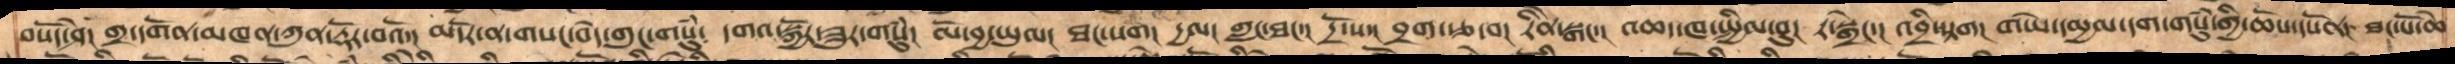བསོད་ཤེ།  གྲ་དགོན་མཁན་ཀུན་རྡོར་བའོ་།  མདོར་ན་གསང་བདེ་གུང་གསུཾ༴  དགའ་སྐྱོར་ཟུར་གསུཾ།  ལོ་བྱ་ཡུལ་  ཐང་སག། དྱལ།  གླང་ཐང་། དྲོ་ས་།   བྲག་རྩ་བ། རིནེ་སྒང་།  འཆད་ཁ་སྤྱིལ་བུ།  ར་སྒྲེང་།  འབྲི་སྟག།  གཡེ་དམྱལ་དག་གསུཾ་གྱི་ཆོས་དཔོན།  ཐང་པོ་ཆེ་
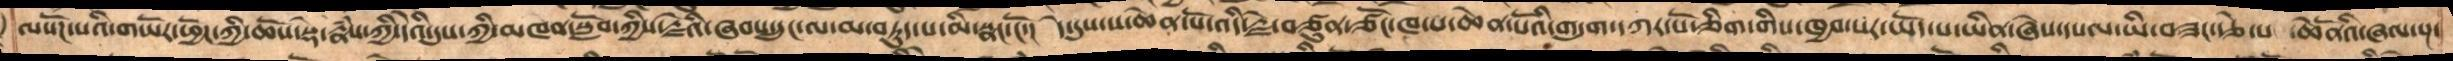ལསོཌ་པའི་གཡོར་ཕྱོཌ་ཀྱི་ཆོས་སྡེ་རྣཾས་ཀྱི་དེའི་དུས་ཀྱི་མཁན་སློབ་ཀྱིས་རྗེའི་ཞབས་དྲུང་མ་བཏུད་པ་མི་སྣང་ངོ་།  དེ་དུས་ས་ཆེན་པོ་འདི་རྗེ་བཙུན་ཙོང་ཁ་པ་ཆེན་པོའི་གདུག་དཀར་པོ་ཅིག་གིས་ཁྱབ་པར་ཡོད་པ་ཡིན་ཞེས་དཔལ་ཡི་བཟང་རྩེ་པ་  ཆེནོའི་ཞལ་སྔ་
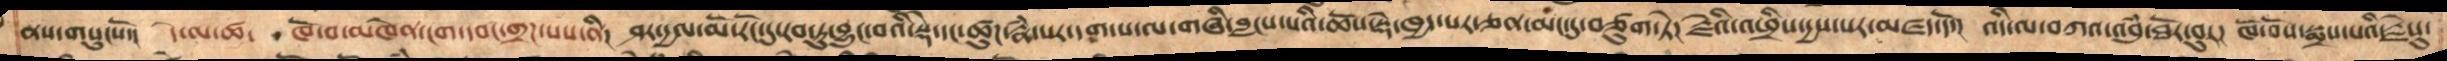ནས་གསུངསོ་།  དེ་མ་ཚ་ ཁོ་བ་མཁེན་ངག་དབང་གྲཌ་པས་ནི།  ཤར་དྱལ་མོ་རོང་དུ་རབ་་ཏུ་བྱུང་བའི་སྡེ་དང་ཚུཌ་རྣཾ་པར་དག་པ་ལ་གཞི་བླངས་པའི་ཆོས་སྡེ་ཁྱད་པར་ཅན་མང་དུ་བཙུག་ཏེ།  རྗེའི་འཕྲིས་སདྱས་པར་མཛད་དོ།  འདི་ལ་བཀའ་འབུཾ་ཐོར་བུར།  ཁོ་བོས་སྨྲས་པའི་རྗེསུ་
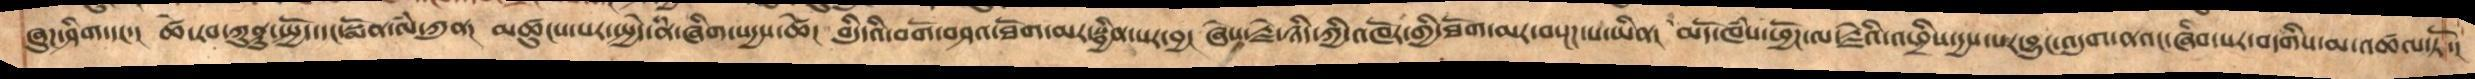ཞུཌ་ཤིག་དང་།  ཚེ་རབ་ཀུནྟུ་སྤྱོད་དང་སྨོན་ལཾ་ཀུན། མཚུངས་པར་སྤྱེད་ནཾ་ཞིག་སདྱས་ཚེ། བདུདིའི་བགོ་བཤའ་ཐོག་མར་སྦྱིན་པར་བྱ། ཞེས་རྗེ་ཉིད་ཀྱི་འཁོར་གྱི་ཐོག་མར་བསྔཌ་པ་ཡིན།  མདོ་ཁཾས་ཕྱོཌ་ལ་རྗེའི་འཕྲིས་དྱས་པར་བྱུང་འདུག་ནའང་ཞིབ་པར་བདགིས་མ་འཚལ་ཏོ་།
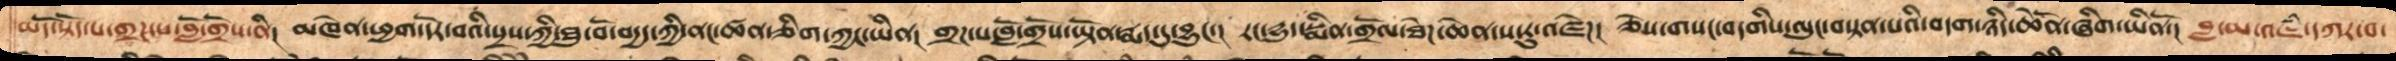མདོ་སྟོད་པ་གྲཌ་པ་བློ་གྲོས་ནི།  མཁེན་ཕྱག་དོར་བའི་སྲས་ཀྱི་ཐུ་བོ་བདྱད་ཀྱི་ནང་ཚན་ཅིག་ཀྱང་ཡིན།  གྲཌ་པ་བློ་གྲོས་ཡྟོན་རྨད་དུ་བྱུང་།  རང་དྱུད་སྨིན་གྲོལ་ཐེཌ་ཆེན་ས་རུ་འཛེཌ།  ཅེས་གསང་བདགིས་ལུང་བསྟན་པའི་བདག་ཉིད་ཆེནོ་ཞིག་ཡིནོ།  བླ་མ་འཇཾ་དཀར་བ་
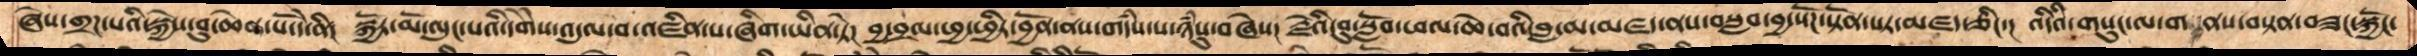ཞེས་གྲཌ་པའི་སྐྱེས་བུ་ཆེན་པོ་དེ་ནི།  སྐྱོར་མོ་ལུང་པའི་དགཻས་འདུལ་བ་འཛིན་པ་ཞིག་ཡིན་ཏེ།  བྱ་བྲལ་ཕྱ་ཕྱིར་བྱོན་ནས་གདཾས་པ་ཉཾསུ་བཞེས།  རྗེའི་བུ་སློབ་ཕལ་ཆེ་བའི་བླ་མ་མཛད་ནས་བསླབ་བྱ་སོཌ་སྟོན་པར་མཛད་ཅིང་།  འདིའི་གསུང་ལ་གནས་བསྟན་བཟང་སྐྱོང་
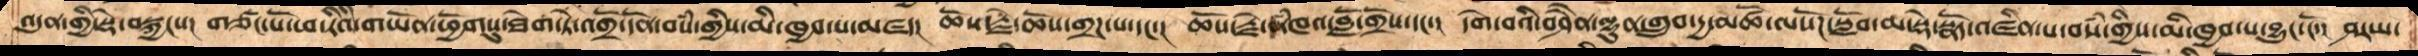འདུན་གྱི་སྡེ་བསྐྱངས། གཙང་པོ་ཕ་རིའི་གཡོན་ཕྱོགསུ་ཐེག་ཏེ་འགྲོ་དོན་བསཾ་གྱིས་མི་ཁྱབ་པ་མཛད།  ཆོས་རྗེ་ཆོས་གྲཌ་པ་དང་།  ཆོས་རྗེ་ནཾཁའ་བློ་གྲོས་དང་།  དགེ་བའི་བཤཻན་ལྷུན་གྲུབ་དྱ་མཚོ་ལསོཌ་སློབ་མ་སྡེ་སྣོད་འཛིན་པ་བསཾ་གྱིས་མི་ཁྱབ་པ་བྱུང་ངོ་།  ཤརཡ་
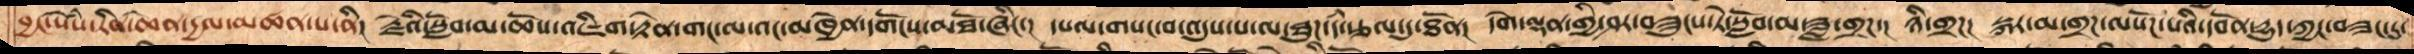བྱང་སེཾས་རིན་ཆེན་དྱལ་མཚན་པ་ནི།  རྗེའི་སློབ་མ་ཆོས་འཇིག་རྟེན་གང་ལ་འང་མཁྱེན་དགོངས་མཐོ་ཞིང་།  དཔལ་གསང་བ་འདུས་པ་ལ་ཐུཌ་དཾ་རྩལ་དུ་ཐོན།  དགེ་ལྡན་གྱི་ཤར་བཟུངས་ཏེ་སློབ་མ་ཟླ་གྲཌ།  ཉི་གྲཌ། སྐར་མ་གྲཌ་ལསོཌ་པའི་དབེན་དྱུད་ཀྱང་བཟང་དུ་
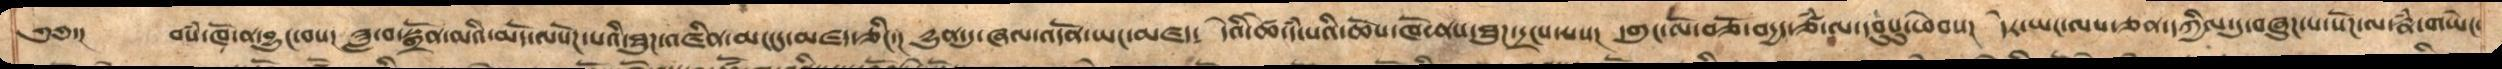༄༅་།    བསཾ་ཁོ་ན་བྱུང་བས།  ཟླ་བ་སྒྲོན་མའི་མདོ་ལསོཌ་པའི་ཐུཌ་འཛིན་མང་དུ་མཛད་ཅིང་།  དྱུན་དུ་ཞལ་འདོན་ཡང་མཛད་  དེའི་ཚེ་དཾ་པའི་ཆོས་ཁོ་ནས་ཐུཌ་དྲངས་པ།  དགུང་ལོ་བཅོ་བདྱད་ཙཾ་ལ་དབུསུ་ཕེབས།  དེར་ཡང་ལས་ཅན་དཀྱིལ་དུ་བཞུཌ་པ་སོཌ་ལ་རྣཾ་གཡེང་
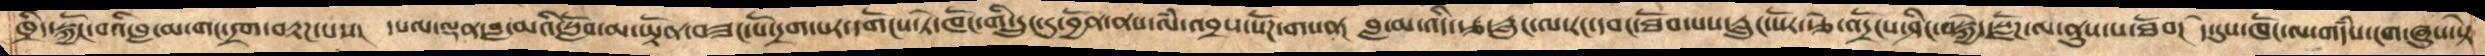ཁྲེད་སྐྱོང་བའི་བླ་མ་གང་དྲག་བརྟཌ་པས།  དཔལ་ལྡན་བླ་མའི་སློབ་མ་ཡྟོན་བཟང་པོ་དྲག་པར་དགོངས་ཏེ་ཁོང་གི་དྲུང་དུ་བྱོན་ནས་ལཾ་འབྲས་སོཌ་གསན།  བླ་མ་འདི་རྩ་རླུང་ལ་རང་དབང་ཐོབ་པས་རླུང་སོར་རྩེ་འདྲོངས་ཤིང་བསྐྱེད་སྫོཌ་ལ་ནུས་པ་ཐོབ།  དེ་དུས་ཁོང་ལ་གདཾས་ངག་ཞུས་ཏེ་
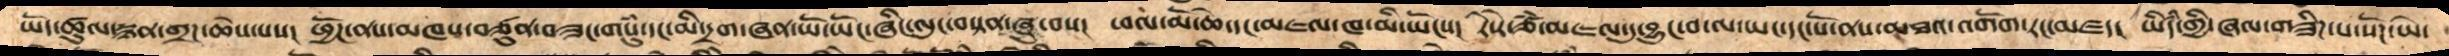ཡོད་ཚུལ་སྙན་གྲཌ་ཆེས་པས།  ཕྱོཌ་ནས་མཁས་བཙུན་བཟང་གསུཾ་དང་མི་དྲག་ཞན་ཡོ་ཡོང་ཞིང་ལུང་བསྟན་ཞུ་བས། ཕལ་མོ་ཆེ་དང་མཇལ་ཁ་མི་ཡོངས།  རེ་རེ་ཙཾ་མཇལ་དུ་བྱུང་བ་ལ་ཡང་དང་པོ་ནས་མཐའ་འགོག་རང་མཛད།  ཡི་དཾ་གྱི་ཞལ་གཟིཌ་པ་སོཌ་ཡེ་
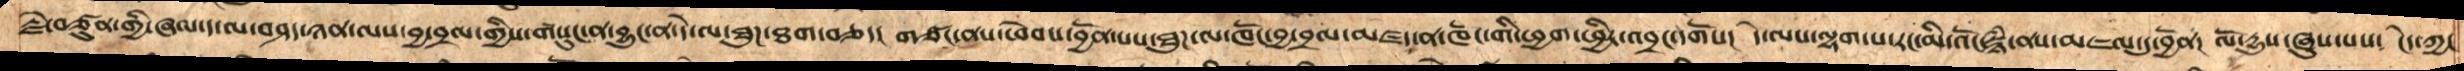རྗེ་བཙུན་གྱི་ཞལ་ད་ལ་བཤད་ཉན་ལས་བྱ་བྲལ་གྱིས་གསུང་ན་བྱུང་ན་དེ་ལ་ཐུཌ་ཐག་བཅད།  གཙང་ནས་ཕེབས་བྱོན་པས་ཐུཌ་ལ་ཁོང་བྱ་བྲལ་མཛད་ན་ཁོང་གི་ཕྱག་ཕྱིར་འབྲང་དགོས།  དེ་ལས་ལྷག་པ་རང་མི་འོང་སྙཾ་ནས་མཇལ་དུ་བྱོན།  ལོ་དྱུས་ཞུས་པས།  ངེད་ཀྱང་
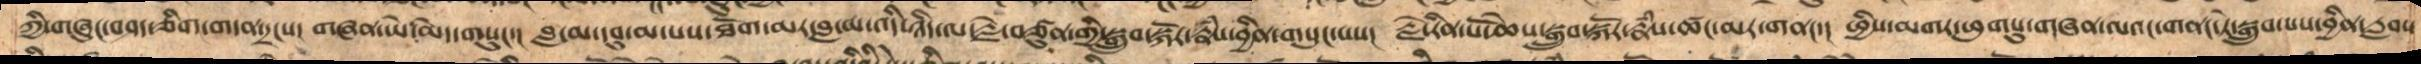ཀྱི་གཞུང་བཤད་ཅིག་གདན་དྲངས།  གཞན་ཡེ་མེད་གསུང་།  བླ་མ་དབུ་མ་པས་ཐོག་མར་བླ་མ་འདི་ཉིད་ལ་རྗེ་བཙུན་གྱི་སྒྲུབ་སྐོར་རྣཾས་བྱིན་གསུང་པས།  རྗེ་རིན་པོ་ཆེས་སྒྲུབ་སྐོར་རྣཾས་ཚང་མར་གནང་།  ཕྱིས་མགར་ཕུགསུ་གཞན་ལའང་གནང་ཏེ་སྒྲུབ་པས་བྱིན་རླབས
